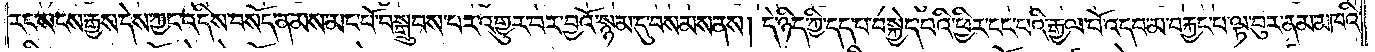རང་སངས་རྒྱས་དེས་ཀྱང་འདིས་བསོད་ནམས་མང་པོ་བསྒྲུབས་པར་འགྱུར་བར་བྱའོ་སྙམ་དུ་བསམས་ནས། དེ་ཉིད་ཀྱི་དད་པ་བསྐྱེད་པའི་ཕྱིར་ངང་པའི་རྒྱལ་པོ་འདབ་མ་བརྐྱང་པ་ལྟ་བུར་ནམ་མཁའི་
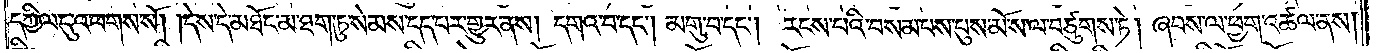དཀྱིལ་དུ་འཕགས་སོ། །དེས་དེ་མཐོང་མ་ཐག་ཏུ་སེམས་དད་པར་གྱུར་ནས། དགའ་བ་དང༌། མགུ་བ་དང༌། རངས་པའི་བསམ་པས་པུས་མོ་ས་ལ་བཙུགས་ཏེ། ཞབས་ལ་ཕྱག་འཚལ་ནས།
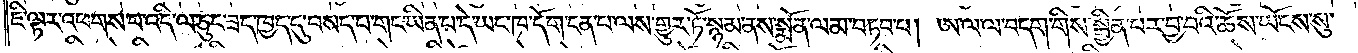ཇི་ལྟར་འཕགས་པ་འདི་ལ་ཅུང་ཟད་ཁྱད་དུ་བསད་པ་གང་ཡིན་པ་དེ་ཡང་ཁ་དོག་ངན་པ་ལས་གྱུར་ཏོ་སྙམ་ནས་སྨོན་ལམ་བཏབ་པ། ཨ་ལ་ལ་བདག་གིས་སྦྱིན་པར་བྱ་བའི་ཆོས་ཡོངས་སུ་
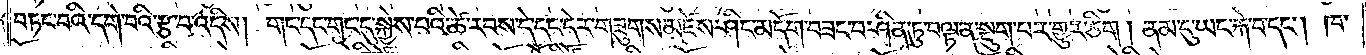བཏང་བའི་དགེ་བའི་རྩ་བ་འདིས། གང་དང་གང་དུ་སྐྱེས་པའི་ཚེ་རབས་དེ་དང་དེར་གཟུགས་མཛེས་ཤིང་མདོག་བཟང་བ་ཤིན་ཏུ་བལྟ་ན་སྡུག་པར་གྱུར་ཅིག །ནམ་དུ་ཡང་རྐེ་བ་དང༌། ཁ་
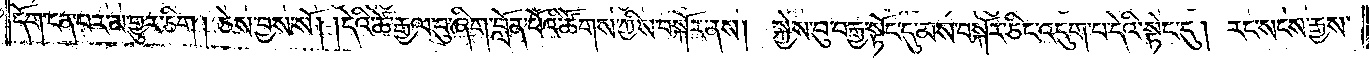དོག་ངན་པར་མ་གྱུར་ཅིག །ཅེས་བྱས་སོ། །དེའི་ཚེ་རྒྱལ་བུ་ཞིག་བློན་པོའི་ཚོགས་ཀྱིས་བསྐོར་ནས། སྐྱེས་བུ་བརྒྱ་སྟོང་དུ་མས་བསྐོར་ཅིང་འདུག་པ་དེའི་སྟེང་དུ། རང་སངས་རྒྱས་
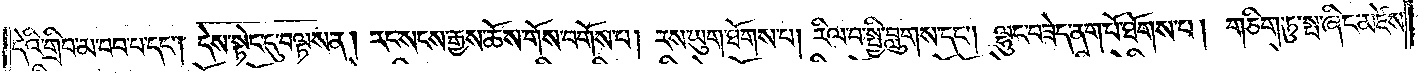དེའི་གྲིབ་མ་བབ་པ་དང༌། དེས་སྟེང་དུ་བལྟས་ན། རང་སངས་རྒྱས་ཆོས་གོས་བགོས་པ། རས་ཡུག་ཐོགས་པ། རིལ་བ་སྤྱི་བླུགས་དང༌། ལྷུང་བཟེད་ནག་པོ་ཐོགས་པ། གཅིག་ཏུ་སྤ་ཞིང་མཛེས་
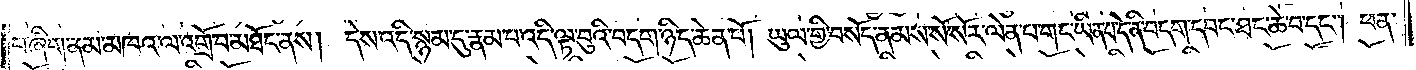པ་ཞིག་ནམ་མཁའ་ལ་འགྲོ་བ་མཐོང་ནས། དེས་འདི་སྙམ་དུ་རྣམ་པ་འདི་ལྟ་བུའི་བདག་ཉིད་ཆེན་པོ། ཡུལ་གྱི་བསོད་ནམས་སོ་སོར་ལེན་པ་གང་ཡིན་པ་དེ་ནི་བདག་དབང་ཐང་ཆེ་བ་དང༌། ཕན་
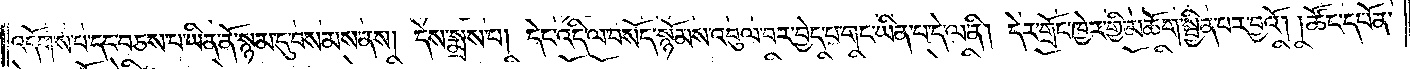འདོགས་པ་དང་བཅས་པ་ཡིན་ནོ་སྙམ་དུ་བསམས་ནས། དེས་སྨྲས་པ། དེང་འདི་ལ་བསོད་སྙོམས་འབུལ་བར་བྱེད་པ་གང་ཡིན་པ་དེ་ལ་ནི། དེར་གྲོང་ཁྱེར་གྱི་མཆོག་སྦྱིན་པར་བྱའོ། །ཚོང་དཔོན་
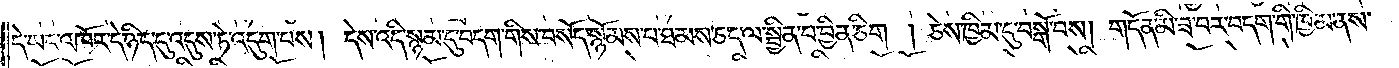དེ་ཡང་འཁོར་དེ་ཉིད་དུ་འདུས་ཏེ་འདུག་པས། དེས་འདི་སྙམ་དུ་བདག་གིས་བསོད་སྙོམས་པ་ཐམས་ཅད་ལ་སྦྱིན་པ་བྱིན་ཅིག །ཅེས་ཁྱིམ་དུ་བསྒོ་བས། གདོན་མི་ཟ་བར་བདག་གི་ཁྱིམ་ནས་
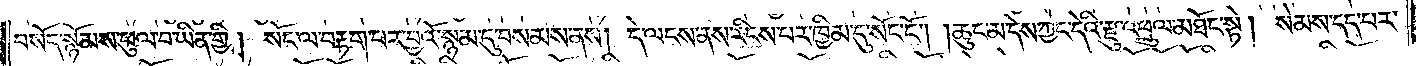བསོད་སྙོམས་ཕུལ་བ་ཡིན་གྱི། སོང་ལ་བརྟག་པར་བྱའོ་སྙམ་དུ་བསམས་ནས། དེ་ལངས་ནས་རིངས་པར་ཁྱིམ་དུ་སོང་ངོ༌། །ཆུང་མ་དེས་ཀྱང་དེའི་རྫུ་འཕྲུལ་མཐོང་སྟེ། སེམས་དད་པར་
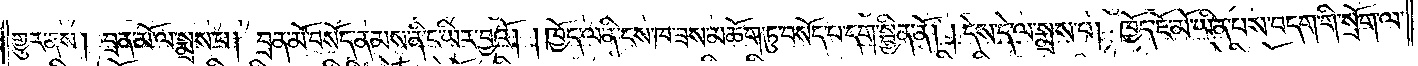གྱུར་ནས། བྲན་མོ་ལ་སྨྲས་པ། བྲན་མོ་བསོད་ནམས་ནི་ང་ཡིར་བྱའོ། །ཁྱོད་ལ་ནི་ངས་ཁ་ཟས་མཆོག་ཏུ་བསོད་པ་དག་སྦྱིན་ནོ། །དེས་དེ་ལ་སྨྲས་པ། ཁྱོད་ཇོ་མོ་ཡིན་པས་བདག་གི་སྲོག་ལ་
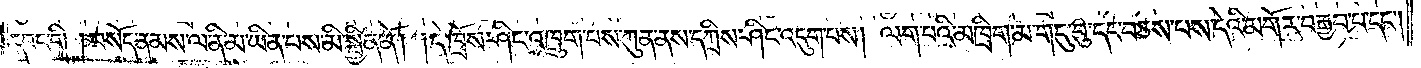དབང་གི། བསོད་ནམས་ལ་ནི་མ་ཡིན་པས་མི་སྦྱིན་ནོ། །དེ་ཁྲོས་ཤིང་འཁྲུག་པས་ཀུན་ནས་དཀྲིས་ཤིང་འདུག་པས། ལག་པའི་མཁྲིག་མ་གདུ་བུ་དང་བཅས་པས་དེའི་མགོར་བརྒྱབ་པ་དང༌།
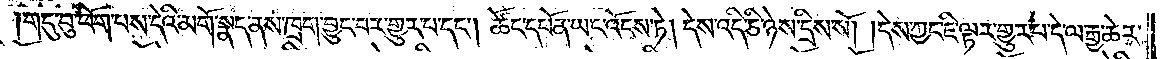གདུ་བུ་ཕོག་པས་དེའི་མགོ་སྣད་ནས་ཁྲག་བྱུང་བར་གྱུར་པ་དང༌། ཚོང་དཔོན་ཡང་འོངས་ཏེ། དེས་འདི་ཅི་ཉེས་དྲིས་སོ། །དེས་ཀྱང་ཇི་ལྟར་གྱུར་པ་དེ་ལ་རྒྱ་ཆེར་
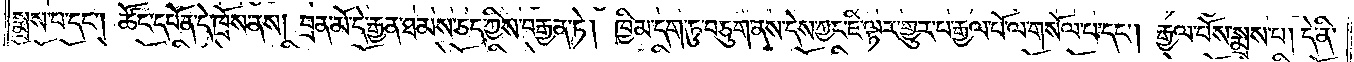སྨྲས་པ་དང༌། ཚོང་དཔོན་དེ་ཁྲོས་ནས། བྲན་མོ་དེ་རྒྱན་ཐམས་ཅད་ཀྱིས་བརྒྱན་ཏེ། ཁྱིམ་དག་ཏུ་བཅུག་ནས་དེས་ཀྱང་ཇི་ལྟར་གྱུར་པ་རྒྱལ་པོ་ལ་གསོལ་པ་དང༌། རྒྱལ་པོས་སྨྲས་པ། དེ་ནི་
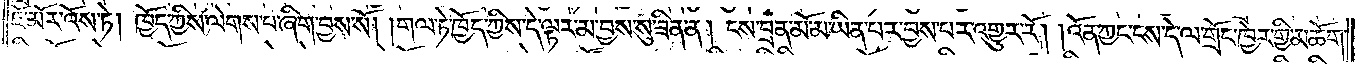ཇོ་མོར་འོས་ཏེ། ཁྱོད་ཀྱིས་ལེགས་པ་ཞིག་བྱས་སོ། །གལ་ཏེ་ཁྱོད་ཀྱིས་དེ་ལྟར་མ་བྱས་སུ་ཟིན་ན། ངས་བྲན་མོ་མ་ཡིན་པར་བྱས་པར་འགྱུར་རོ། །འོན་ཀྱང་ངས་དེ་ལ་གྲོང་ཁྱེར་གྱི་མཆོག་
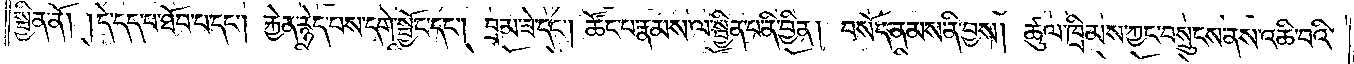སྦྱིན་ནོ། །དེ་དད་པ་ཐོབ་པ་དང༌། རྐྱེན་རྙེད་པས་དགེ་སྦྱོང་དང༌། བྲམ་ཟེ་དང༌། ཚོང་པ་རྣམས་ལ་སྦྱིན་པ་ནི་བྱིན། བསོད་ནམས་ནི་བྱས། ཚུལ་ཁྲིམས་ཀྱང་བསྲུངས་ནས་འཆི་བའི་
